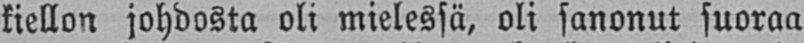kiellon johdosta oli mielessä, oli sanonut suoraa
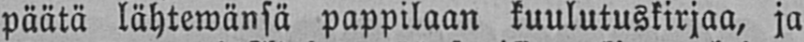päätä lähtewänsä pappilaan kuulutuskirjaa, ja
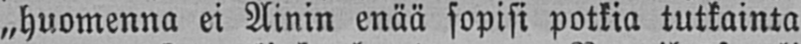„huomenna ei Ainin enää sopisi potkia tutkainta
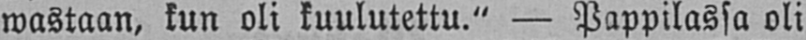wastaan, kun oli kuulutettu." — Pappilassa oli
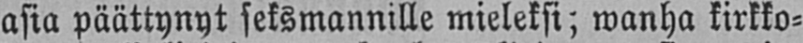asia päättynyt seksmannille mieleksi; wanha kirkko-
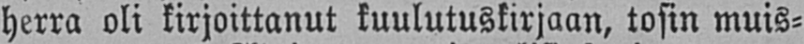herra oli kirjoittanut kuulutuskirjaan, tosin muis-
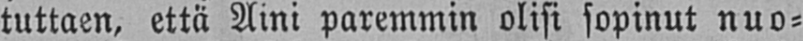tuttaen, että Aini paremmin olisi sopinut nuo-
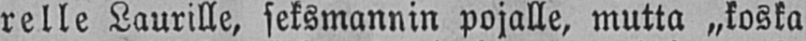relle Laurille, seksmannin pojalle, mutta „koska
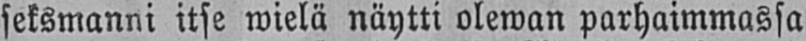seksmanni itse wielä näytti olewan parhaimmassa
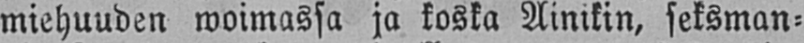miehuuden woimassa ja koska Ainikin, seksman-
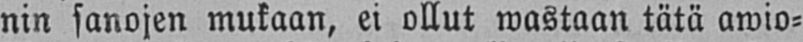nin sanojen mukaan, ei ollut wastaan tätä awio-
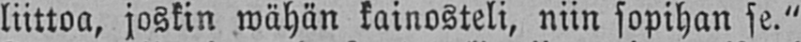liittoa, joskin wähän kainosteli, niin sopihan se."
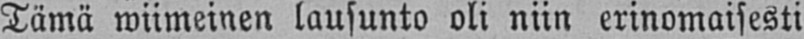Tämä wiimeinen lausunto oli niin erinomaisesti
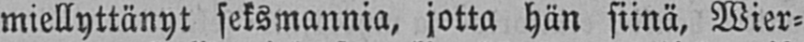miellyttänyt seksmannia, jotta hän siinä, Wier-
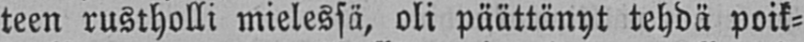teen rustholli mielessä, oli päättänyt tehdä poik-
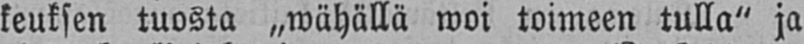keuksen tuosta „wähällä woi toimeen tulla" ja
